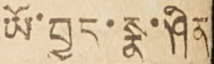ཡོ་བྱད་སྣ་ཤིན
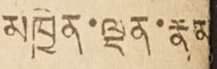མཁྱེན་ལྡན་རྣམ
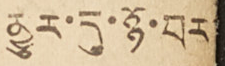མྱུར་དུ་ཉོ་བར
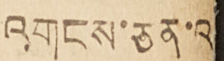འགངས་ཅན་འ
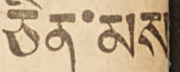ཅིན་མས
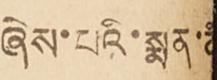ཞེས་པའི་སྨན་ནི
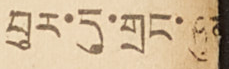བུར་དུ་གྲང་
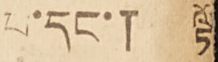པ་དང་། ལྟོ
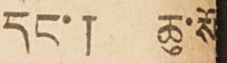དང་། ཆུ་སོ
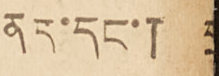ནད་དང་།
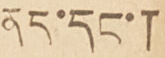ནད་དང་།
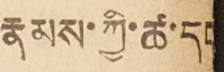རྣམས་ཀྱི་ཚ་དང
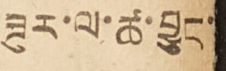ཟུར་ལ་ཚ་བྱུང་
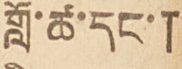གློ་ཚ་དང་།
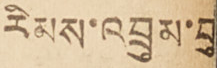རིམས་འབྲུམ་བུ
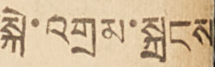སྐེ་འགྲམ་སྐྲངས
